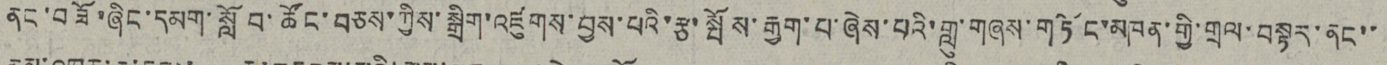ནང་བཟོ་ཞིང་དམག་སློབ་ཚོང་བཅས་ཀྱིས་སྒྲིག་འཛུགས་བྱས་པའི་རྩ་སྤོས་རྒྱུག་པ་ཞེས་པའི་གླུ་གཞས་གཏོང་མཁན་གྱི་གྲལ་བསྟར་ནང་་
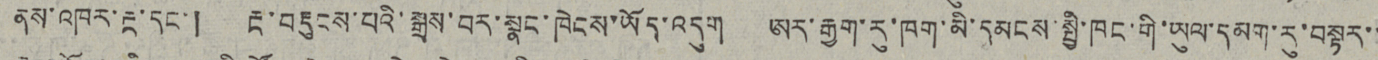ནས་འཁུར་རྔ་དང་། རྔ་བརྡུངས་པའི་སྒྲས་བར་སྣང་ཁེངས་ཡོད་འདུག ཨར་རྒྱག་རུ་ཁག་མི་དམངས་སྤྱི་ཁང་གི་ཡུལ་དམག་རུ་བསྟར་་
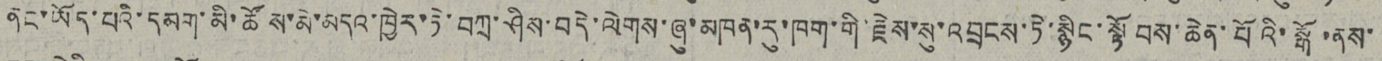ནང་ཡོད་པའི་དམག་མི་ཚོས་མེ་མདའ་ཁྱེར་ཏེ་བཀྲ་ཤིས་བདེ་ལེགས་ཞུ་མཁན་རུ་ཁག་གི་རྗེས་སུ་འབྲངས་ཏེ་སྙིང་སྟོབས་ཆེན་པོའི་སྒོ་ནས་
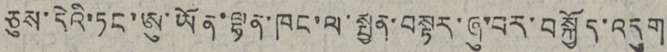ཅུས་དེའི་ཏང་ཨུ་ཡོན་ལྷན་ཁང་ལ་སྤྱན་བསྟར་ཞུ་བར་བསྐྱོད་འདུག
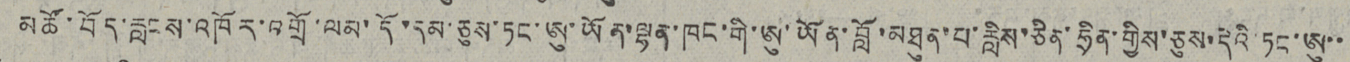མཚོ་བོད་རླངས་འཁོར་འགྲོ་ལམ་དོ་དམ་ཅུས་ཏང་ཨུ་ཡོན་ལྷན་ཁང་གི་ཨུ་ཡོན་བློ་མཐུན་པ་རླིས་ཅིན་ཧྲིན་གྱིས་ཅུས་དེའི་ཏང་ཨུ་་
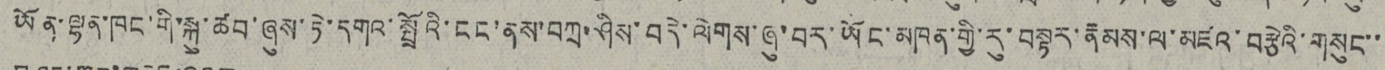ཡོན་ལྷན་ཁང་གི་སྐུ་ཚབ་ཞུས་ཏེ་དགའ་སྤྲོའི་ངང་ནས་བཀྲ་ཤིས་བདེ་ལེགས་ཞུ་བར་ཡོང་མཁན་གྱི་རུ་བསྟར་རྣམས་ལ་མཛའ་བརྩེའི་གསུང་་
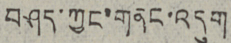བཤད་ཀྱང་གནང་འདུག
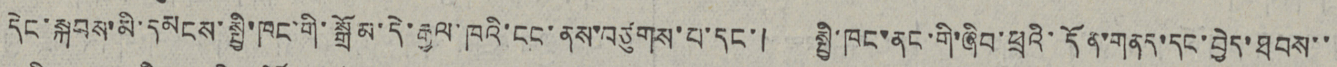དེང་སྐབས་མི་དམངས་སྤྱི་ཁང་གི་སྒྲོམ་དེ་རྒྱལ་ཁའི་ངང་ནས་བཙུགས་པ་དང་། སྤྱི་ཁང་ནང་གི་ཞིབ་ཕྲའི་དོན་གནད་དང་བྱེད་ཐབས་་
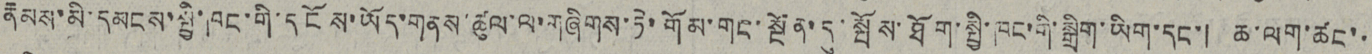རྣམས་མི་དམངས་སྤྱི་ཁང་གི་དངོས་ཡོད་གནས་ཚུལ་ལ་གཞིགས་ཏེ་གོམ་གང་སྔོན་དུ་སྤོས་ཐོག་སྤྱི་ཁང་གི་སྒྲིག་ཡིག་དང་། ཆ་ལག་ཚང་་
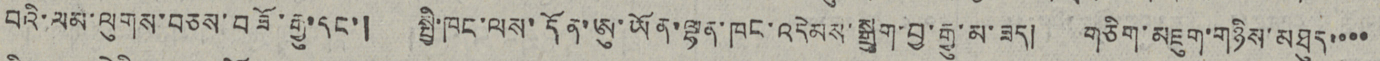བའི་ལམ་ལུགས་བཅས་བཟོ་རྒྱུ་དང་། སྤྱི་ཁང་ལས་དོན་ཨུ་ཡོན་ལྷན་ཁང་འདེམས་སྒྲུག་བྱ་རྒྱུ་མ་ཟད། གཅིག་མཇུག་གཉིས་མཐུད་་་་
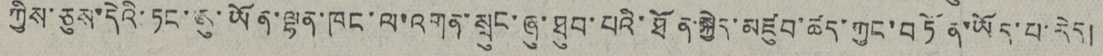ཀྱིས་ཅུས་དེའི་ཏང་ཨུ་ཡོན་ལྷན་ཁང་ལ་འགན་སྲུང་ཞུ་ཐུབ་པའི་ཐོན་སྐྱེད་མཛུབ་ཚད་ཀྱང་བཏོན་ཡོད་པ་རེད།
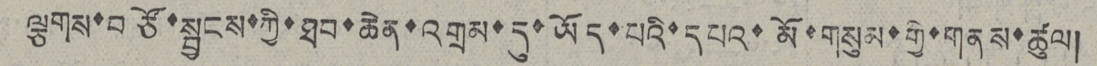ལྕགས་བཙོ་སྦྱངས་ཀྱི་ཐབ་ཆེན་འགྲམ་དུ་ཡོད་པའི་དཔའ་མོ་གསུམ་གྱི་གནས་ཚུལ།
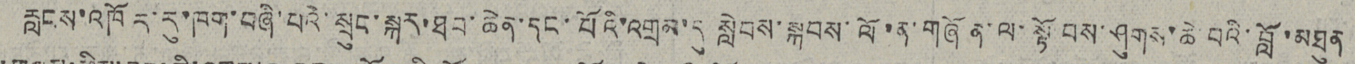རླངས་འཁོར་རུ་ཁག་བཞི་པའི་སྲུང་སྐར་ཐུབ་ཆེན་དང་པོའི་འགྲམ་དུ སླེབས་སྐབས་ལོ་ན་གཞོན་ལ་སྟོབས་ཤུགས་ཆེ་བའི་བློ་མཐུན
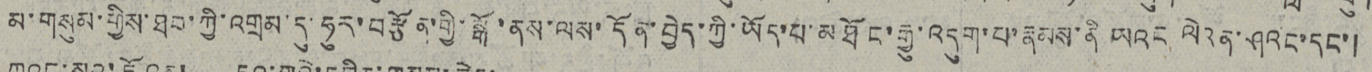མ་གསུམ་གྱིས་ཐབ་ཀྱི་འགྲམ་དུ་ཧུར་བརྩོན་གྱི་སྒོ་ནས་ལས་དོན་བྱེད་ཀྱི་ཡོད་པ་མཐོང་རྒྱུ་འདུག་པ་རྣམས་ནི ཡའང ལེའན་ཤའང་དང་།
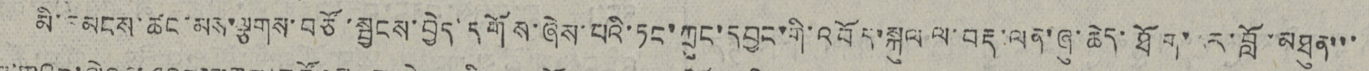མི་དམངས་ཚང་མས་ལྕགས་བཙོ་སྦྱངས་བྱེད་དགོས་ཞེས་པའི་ཏང་ཀྲུང་དབྱང་གི་འབོད་སྐུལ ལ་བརྡ་ལན་ཞུ་ཆེད་ཐོག་པར་བློ་མཐུན་་་
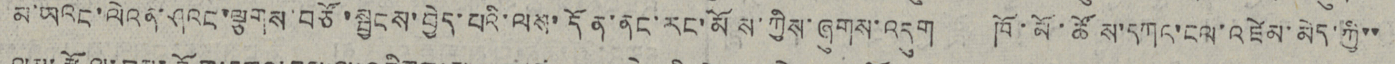མ་ཡའང་ལེའན་ཤའང་ལྕགས་བཙོ་སྦྱངས་བྱེད་པའི་ལས་དོན་ནང་རང་མོས་ཀྱིས་ཞུགས་འདུག ཁོ་མོ་ཚོས་དཀའ་ངལ་འཛེམ་མེད་ཀྱི་་
